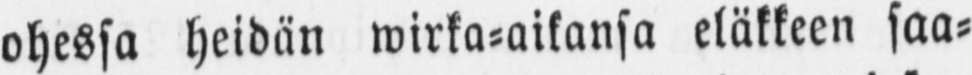ohessa heidän wirka-aikansa eläkkeen saa-
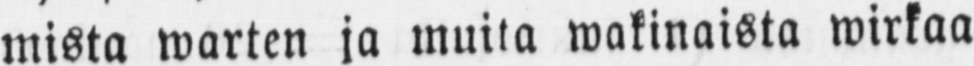mista warten ja muita wakinaista wirkaa
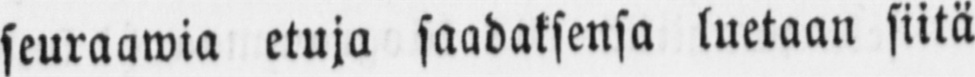seuraawia etuja saaduksensa luetaan siitä
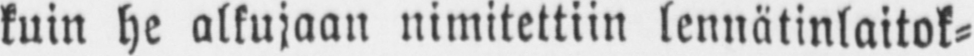kuin he alkujaan nimitettiin lennätinlaitok-
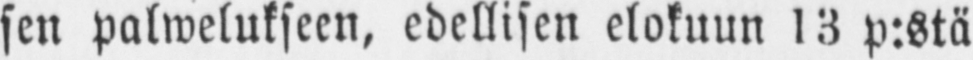sen palwelukseen, edellisen elokuun 13 p:stä
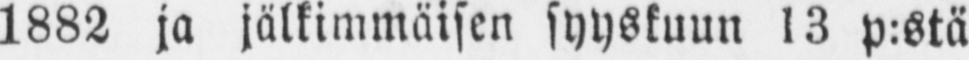1882 ja jälkimmäisen syyskuun 13 p:stä
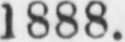1888.
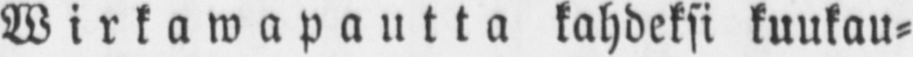Wirkawapautta kahdeksi kuukau-
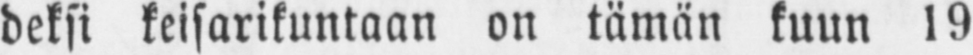deksi keisarikuntaan on tämän kuun 19
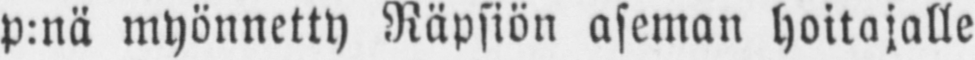p:nä myönnetty Näpsiön aseman hoitajalle
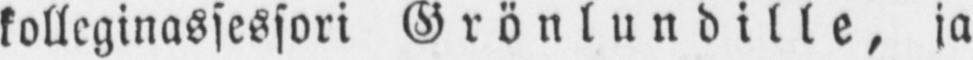kolleginassessori Grönlundille, ja
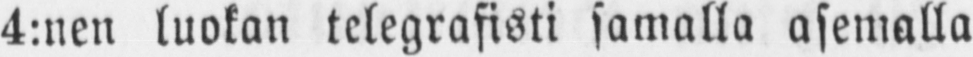4:nen luokan telegrafisti samalla asemalla
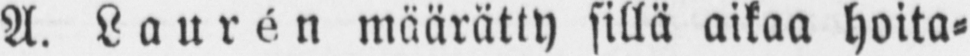A. Laurén määrätty sillä aikaa hoita-
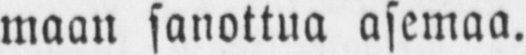maan sanottua asemaa.
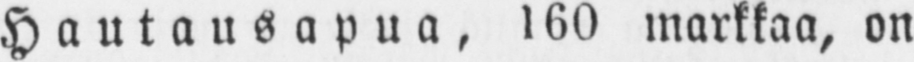Hautausapua, 160 markkaa, on
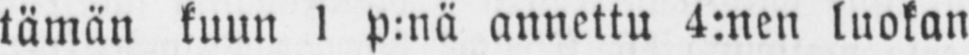tämän kuun 1 p:nä annettu 4:nen luokan
